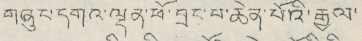གཞུང་དགའ་ལྡན་ཕོ་བྲང་པ་ཆེན་པོའི་རྒྱལ་
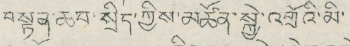བསྟན་ཆབ་སྲིད་ཀྱིས་མཚོན་སྐྱེ་འགྲོའི་མི་
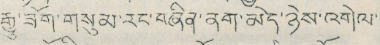རྒྱུ་ཟོག་གསུམ་རང་བཞིན་ནག་མེད་ཉེས་འགེལ་
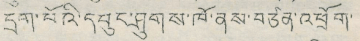དྲག་པོའི་དཔུང་ཤུགས་ཁོ་ནས་བཙན་འཕྲོག་
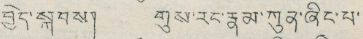བྱེད་སྐབས། གུས་རང་རྣམ་ཀུན་ཞིང་པ་
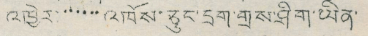འཁྱེར་་་་་་འཁོས་ཅུང་དྲག་གྲས་ཤིག་ཡིན་
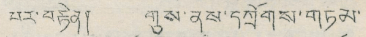པར་བརྟེན། གུས་ནས་དཀྲོགས་གཏམ་
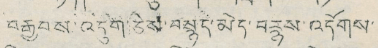བརྒྱབས་འདུག་ཅེས་བསྙད་མེད་བརྙས་འདོགས་
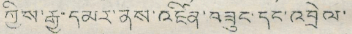ཀྱིས་རྒྱ་དམར་ནས་འཛིན་བཟུང་དང་འབྲེལ་
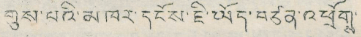གུས་པའི་མཁར་དངོས་ཇི་ཡོད་བཙན་འཕྲོགྶ་
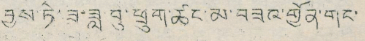བྱས་ཏེ་ཟ་ཟླ་བུ་ཕྲུག་ཚང་མ་བཟའ་གྱོན་གང་
